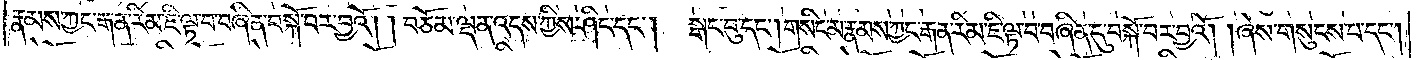རྣམས་ཀྱང་རྒན་རིམ་ཇི་ལྟ་བ་བཞིན་བསྐོ་བར་བྱའོ། །བཅོམ་ལྡན་འདས་ཀྱིས་ཤིང་དང༌། སྒང་བུ་དང༌།གསིང་མ་རྣམས་ཀྱང་རྒན་རིམ་ཇི་ལྟ་བ་བཞིན་དུ་བསྐོ་བར་བྱའོ། །ཞེས་གསུངས་པ་དང༌།
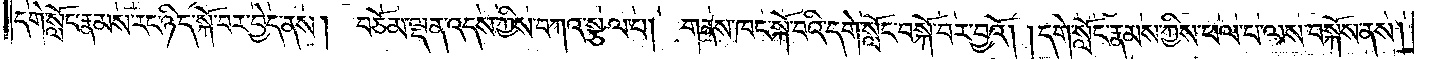དགེ་སློང་རྣམས་རང་ཉིད་སྐོ་བར་བྱེད་ནས། བཅོམ་ལྡན་འདས་ཀྱིས་བཀའ་སྩལ་པ། གནས་ཁང་སྐོ་བའི་དགེ་སློང་བསྐོ་བར་བྱའོ། །དགེ་སློང་རྣམས་ཀྱིས་ཕལ་པ་ལས་བསྐོས་ནས།
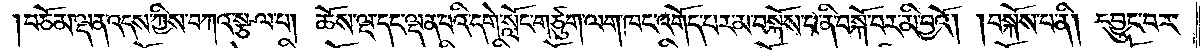བཅོམ་ལྡན་འདས་ཀྱིས་བཀའ་སྩལ་པ། ཆོས་ལྔ་དང་ལྡན་པའི་དགེ་སློང་གཙུག་ལག་ཁང་འགོད་པར་མ་བསྐོས་པ་ནི་བསྐོ་བར་མི་བྱའོ། །བསྐོས་པ་ནི། དབྱུང་བར་
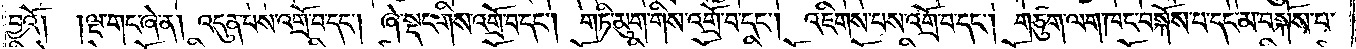བྱའོ། །ལྔ་གང་ཞེ་ན། འདུན་པས་འགྲོ་བ་དང༌། ཞེ་སྡང་གིས་འགྲོ་བ་དང༌། གཏི་མུག་གིས་འགྲོ་བ་དང༌། འཇིགས་པས་འགྲོ་བ་དང༌། གཙུག་ལག་ཁང་བསྐོས་པ་དང་མ་བསྐོས་པ་
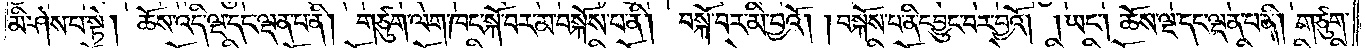མི་ཤེས་པ་སྟེ། ཆོས་འདི་ལྔ་དང་ལྡན་པ་ནི། གཙུག་ལག་ཁང་སྐོ་བར་མ་བསྐོས་པ་ནི། བསྐོ་བར་མི་བྱའོ། །བསྐོས་པ་ནི་དབྱུང་བར་བྱའོ། །ཡང༌། ཆོས་ལྔ་དང་ལྡན་པ་ནི། གཙུག་
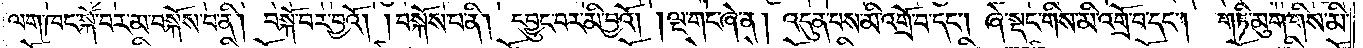ལག་ཁང་སྐོ་བར་མ་བསྐོས་པ་ནི། བསྐོ་བར་བྱའོ། །བསྐོས་པ་ནི། དབྱུང་བར་མི་བྱའོ། །ལྔ་གང་ཞེ་ན། འདུན་པས་མི་འགྲོ་བ་དང༌། ཞེ་སྡང་གིས་མི་འགྲོ་བ་དང༌། གཏི་མུག་གིས་མི་
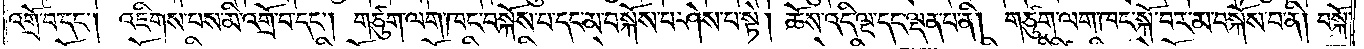འགྲོ་བ་དང༌། འཇིགས་པས་མི་འགྲོ་བ་དང༌། གཙུག་ལག་ཁང་བསྐོས་པ་དང་མ་བསྐོས་པ་ཤེས་པ་སྟེ། ཆོས་འདི་ལྔ་དང་ལྡན་པ་ནི། གཙུག་ལག་ཁང་སྐོ་བར་མ་བསྐོས་པ་ནི། བསྐོ་
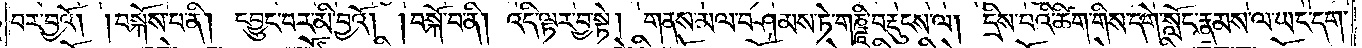བར་བྱའོ། །བསྐོས་པ་ནི། དབྱུང་བར་མི་བྱའོ། །བསྐོ་བ་ནི། འདི་ལྟར་བྱ་སྟེ། གནས་མལ་བཤམས་ཏེ་གཎྜཱི་བརྡུངས་ལ། དྲིས་པའི་ཚིག་གིས་དགེ་སློང་རྣམས་ལ་ཡང་དག་
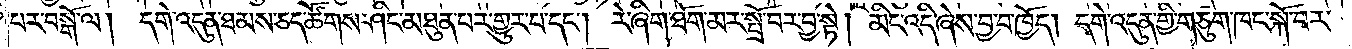པར་བསྒོ་ལ། དགེ་འདུན་ཐམས་ཅད་ཚོགས་ཤིང་མཐུན་པར་གྱུར་པ་དང༌། རེ་ཞིག་ཐོག་མར་སྤྲོ་བར་བྱ་སྟེ། མིང་འདི་ཞེས་བྱ་བ་ཁྱོད། དགེ་འདུན་གྱི་གཙུག་ལག་ཁང་སྐོ་བར་
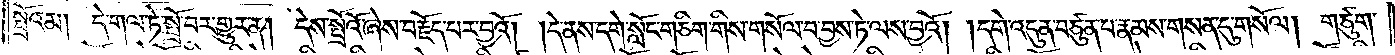སྤྲོའམ། དེ་གལ་ཏེ་སྤྲོ་བར་གྱུར་ན། དེས་སྤྲོའོ་ཞེས་བརྗོད་པར་བྱའོ། །དེ་ནས་དགེ་སློང་གཅིག་གིས་གསོལ་བ་བྱས་ཏེ་ལས་བྱའོ། །དགེ་འདུན་བཙུན་པ་རྣམས་གསན་དུ་གསོལ། གཙུག་
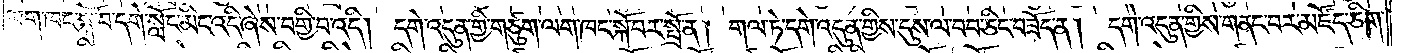ལག་ཁང་སྐོ་བ་དགེ་སློང་མིང་འདི་ཞེས་བགྱི་བ་འདི། དགེ་འདུན་གྱི་གཙུག་ལག་ཁང་སྐོ་བར་སྤྲོ་ན། གལ་ཏེ་དགེ་འདུན་གྱིས་དུས་ལ་བབ་ཅིང་བཟོད་ན། དགེ་འདུན་གྱིས་གནང་བར་མཛོད་ཅིག་
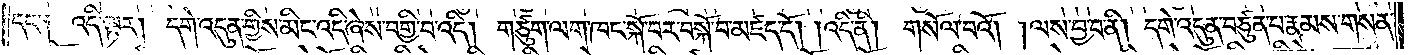དང་༑ འདི་ལྟར། དགེ་འདུན་གྱིས་མིང་འདི་ཞེས་བགྱི་བ་འདི། གཙུག་ལག་ཁང་སྐོ་བར་བསྐོ་བ་མཛད་དོ། །འདི་ནི། གསོལ་བའོ། །ལས་བྱ་བ་ནི། དགེ་འདུན་བཙུན་པ་རྣམས་གསན་
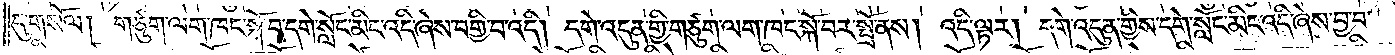དུ་གསོལ། གཙུག་ལག་ཁང་སྐོ་བ་དགེ་སློང་མིང་འདི་ཞེས་བགྱི་བ་འདི། དགེ་འདུན་གྱི་གཙུག་ལག་ཁང་སྐོ་བར་སྤྲོ་ནས། འདི་ལྟར། དགེ་འདུན་གྱིས་དགེ་སློང་མིང་འདི་ཞེས་བྱ་བ་
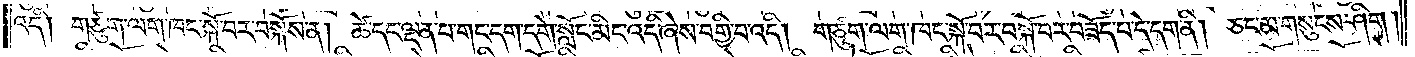འདི། གཙུག་ལག་ཁང་སྐོ་བར་བསྐོས་ན། ཚེ་དང་ལྡན་པ་གང་དག་དགེ་སློང་མིང་འདི་ཞེས་བགྱི་བ་འདི། གཙུག་ལག་ཁང་སྐོ་བར་བསྐོ་བར་བཟོད་པ་དེ་དག་ནི། ཅང་མ་གསུངས་ཤིག །
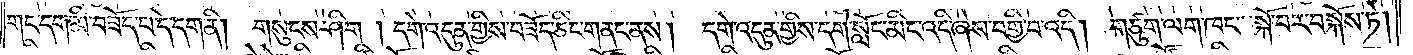གང་དག་མི་བཟོད་པ་དེ་དག་ནི། གསུངས་ཤིག །དགེ་འདུན་གྱིས་བཟོད་ཅིང་གནང་ནས། དགེ་འདུན་གྱིས་དགེ་སློང་མིང་འདི་ཞེས་བགྱི་བ་འདི། གཙུག་ལག་ཁང་སྐོ་བར་བསྐོས་ཏེ།
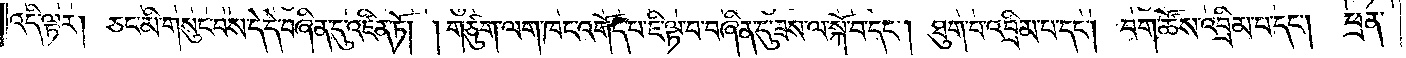འདི་ལྟར། ཅང་མི་གསུང་བས་དེ་དེ་བཞིན་དུ་འཛིན་ཏོ། །གཙུག་ལག་ཁང་འགོད་པ་ཇི་ལྟ་བ་བཞིན་དུ་ཟས་ལ་སྐོ་བ་དང༌། ཐུག་པ་འབྲིམ་པ་དང༌། བག་ཚོས་འབྲིམ་པ་དང༌། ཕྲན་
